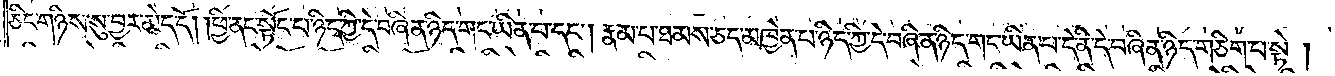ཅིང་གཉིས་སུ་བྱར་མེད་དོ། །ཕྱི་ནང་སྟོང་པ་ཉིད་ཀྱི་དེ་བཞིན་ཉིད་གང་ཡིན་པ་དང༌། རྣམ་པ་ཐམས་ཅད་མཁྱེན་པ་ཉིད་ཀྱི་དེ་བཞིན་ཉིད་གང་ཡིན་པ་དེ་ནི་དེ་བཞིན་ཉིད་གཅིག་པ་སྟེ།
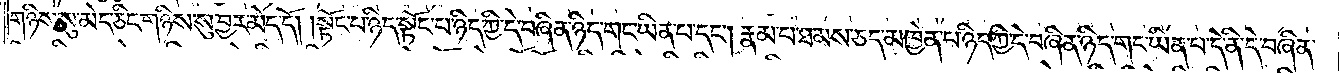གཉིས་སུ་མེད་ཅིང་གཉིས་སུ་བྱར་མེད་དོ། །སྟོང་པ་ཉིད་སྟོང་པ་ཉིད་ཀྱི་དེ་བཞིན་ཉིད་གང་ཡིན་པ་དང༌། རྣམ་པ་ཐམས་ཅད་མཁྱེན་པ་ཉིད་ཀྱི་དེ་བཞིན་ཉིད་གང་ཡིན་པ་དེ་ནི་དེ་བཞིན་
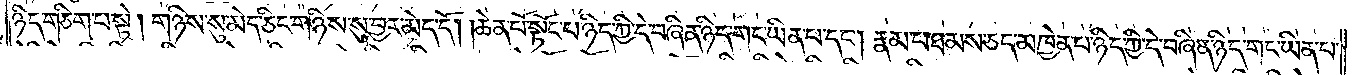ཉིད་གཅིག་པ་སྟེ། གཉིས་སུ་མེད་ཅིང་གཉིས་སུ་བྱར་མེད་དོ། །ཆེན་པོ་སྟོང་པ་ཉིད་ཀྱི་དེ་བཞིན་ཉིད་གང་ཡིན་པ་དང༌། རྣམ་པ་ཐམས་ཅད་མཁྱེན་པ་ཉིད་ཀྱི་དེ་བཞིན་ཉིད་གང་ཡིན་པ་
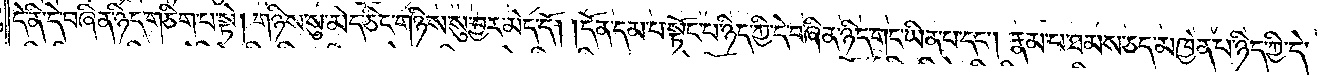དེ་ནི་དེ་བཞིན་ཉིད་གཅིག་པ་སྟེ། གཉིས་སུ་མེད་ཅིང་གཉིས་སུ་བྱར་མེད་དོ། །དོན་དམ་པ་སྟོང་པ་ཉིད་ཀྱི་དེ་བཞིན་ཉིད་གང་ཡིན་པ་དང༌། རྣམ་པ་ཐམས་ཅད་མཁྱེན་པ་ཉིད་ཀྱི་དེ་
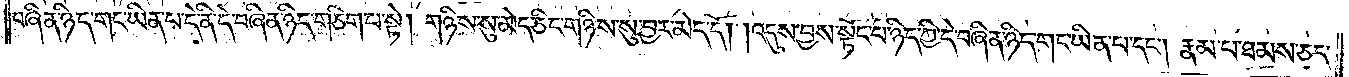བཞིན་ཉིད་གང་ཡིན་པ་དེ་ནི་དེ་བཞིན་ཉིད་གཅིག་པ་སྟེ། གཉིས་སུ་མེད་ཅིང་གཉིས་སུ་བྱར་མེད་དོ། །འདུས་བྱས་སྟོང་པ་ཉིད་ཀྱི་དེ་བཞིན་ཉིད་གང་ཡིན་པ་དང༌། རྣམ་པ་ཐམས་ཅད་
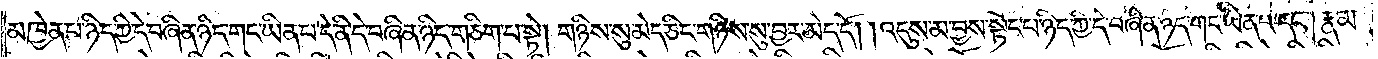མཁྱེན་པ་ཉིད་ཀྱི་དེ་བཞིན་ཉིད་གང་ཡིན་པ་དེ་ནི་དེ་བཞིན་ཉིད་གཅིག་པ་སྟེ། གཉིས་སུ་མེད་ཅིང་གཉིས་སུ་བྱར་མེད་དོ། །འདུས་མ་བྱས་སྟོང་པ་ཉིད་ཀྱི་དེ་བཞིན་ཉིད་གང་ཡིན་པ་དང༌། རྣམ་
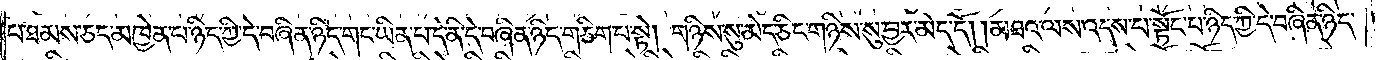པ་ཐམས་ཅད་མཁྱེན་པ་ཉིད་ཀྱི་དེ་བཞིན་ཉིད་གང་ཡིན་པ་དེ་ནི་དེ་བཞིན་ཉིད་གཅིག་པ་སྟེ། གཉིས་སུ་མེད་ཅིང་གཉིས་སུ་བྱར་མེད་དོ། །མཐའ་ལས་འདས་པ་སྟོང་པ་ཉིད་ཀྱི་དེ་བཞིན་ཉིད་
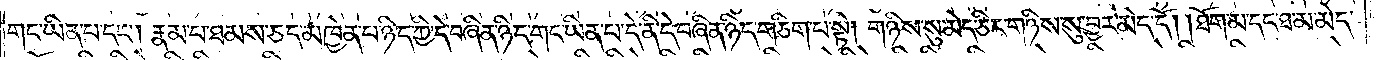གང་ཡིན་པ་དང༌། རྣམ་པ་ཐམས་ཅད་མཁྱེན་པ་ཉིད་ཀྱི་དེ་བཞིན་ཉིད་གང་ཡིན་པ་དེ་ནི་དེ་བཞིན་ཉིད་གཅིག་པ་སྟེ། གཉིས་སུ་མེད་ཅིང་གཉིས་སུ་བྱར་མེད་དོ། །ཐོག་མ་དང་ཐ་མ་མེད་
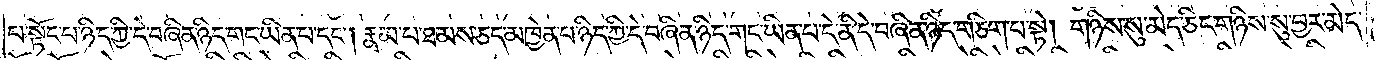པ་སྟོང་པ་ཉིད་ཀྱི་དེ་བཞིན་ཉིད་གང་ཡིན་པ་དང༌། རྣམ་པ་ཐམས་ཅད་མཁྱེན་པ་ཉིད་ཀྱི་དེ་བཞིན་ཉིད་གང་ཡིན་པ་དེ་ནི་དེ་བཞིན་ཉིད་གཅིག་པ་སྟེ། གཉིས་སུ་མེད་ཅིང་གཉིས་སུ་བྱར་མེད་
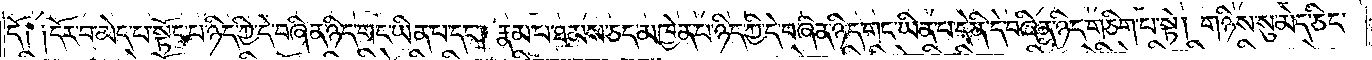དོ༑ ༑དོར་བ་མེད་པ་སྟོང་པ་ཉིད་ཀྱི་དེ་བཞིན་ཉིད་གང་ཡིན་པ་དང༌། རྣམ་པ་ཐམས་ཅད་མཁྱེན་པ་ཉིད་ཀྱི་དེ་བཞིན་ཉིད་གང་ཡིན་པ་དེ་ནི་དེ་བཞིན་ཉིད་གཅིག་པ་སྟེ། གཉིས་སུ་མེད་ཅིང་
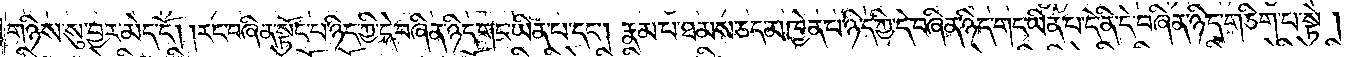གཉིས་སུ་བྱར་མེད་དོ། །རང་བཞིན་སྟོང་པ་ཉིད་ཀྱི་དེ་བཞིན་ཉིད་གང་ཡིན་པ་དང༌། རྣམ་པ་ཐམས་ཅད་མཁྱེན་པ་ཉིད་ཀྱི་དེ་བཞིན་ཉིད་གང་ཡིན་པ་དེ་ནི་དེ་བཞིན་ཉིད་གཅིག་པ་སྟེ།
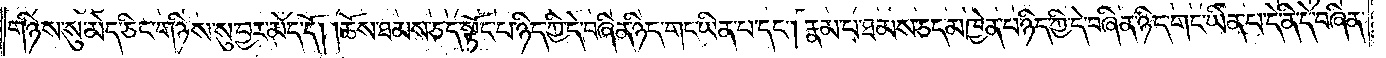གཉིས་སུ་མེད་ཅིང་གཉིས་སུ་བྱར་མེད་དོ། །ཆོས་ཐམས་ཅད་སྟོང་པ་ཉིད་ཀྱི་དེ་བཞིན་ཉིད་གང་ཡིན་པ་དང༌། རྣམ་པ་ཐམས་ཅད་མཁྱེན་པ་ཉིད་ཀྱི་དེ་བཞིན་ཉིད་གང་ཡིན་པ་དེ་ནི་དེ་བཞིན་
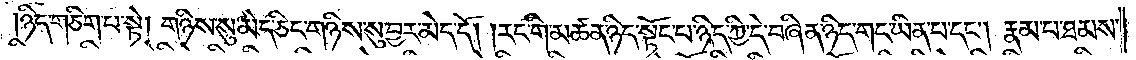ཉིད་གཅིག་པ་སྟེ། གཉིས་སུ་མེད་ཅིང་གཉིས་སུ་བྱར་མེད་དོ། །རང་གི་མཚན་ཉིད་སྟོང་པ་ཉིད་ཀྱི་དེ་བཞིན་ཉིད་གང་ཡིན་པ་དང༌། རྣམ་པ་ཐམས་
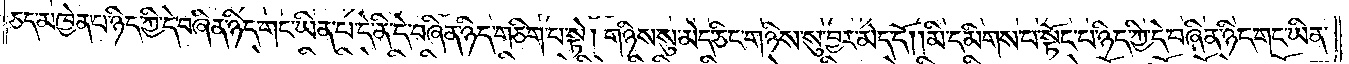ཅད་མཁྱེན་པ་ཉིད་ཀྱི་དེ་བཞིན་ཉིད་གང་ཡིན་པ་དེ་ནི་དེ་བཞིན་ཉིད་གཅིག་པ་སྟེ། གཉིས་སུ་མེད་ཅིང་གཉིས་སུ་བྱར་མེད་དོ། །མི་དམིགས་པ་སྟོང་པ་ཉིད་ཀྱི་དེ་བཞིན་ཉིད་གང་ཡིན་
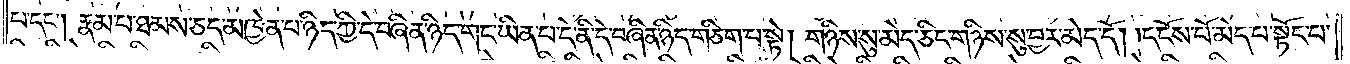པ་དང༌། རྣམ་པ་ཐམས་ཅད་མཁྱེན་པ་ཉིད་ཀྱི་དེ་བཞིན་ཉིད་གང་ཡིན་པ་དེ་ནི་དེ་བཞིན་ཉིད་གཅིག་པ་སྟེ། གཉིས་སུ་མེད་ཅིང་གཉིས་སུ་བྱར་མེད་དོ། །དངོས་པོ་མེད་པ་སྟོང་པ་
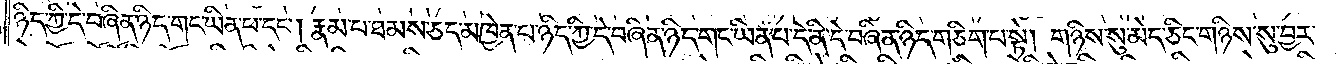ཉིད་ཀྱི་དེ་བཞིན་ཉིད་གང་ཡིན་པ་དང༌། རྣམ་པ་ཐམས་ཅད་མཁྱེན་པ་ཉིད་ཀྱི་དེ་བཞིན་ཉིད་གང་ཡིན་པ་དེ་ནི་དེ་བཞིན་ཉིད་གཅིག་པ་སྟེ། གཉིས་སུ་མེད་ཅིང་གཉིས་སུ་བྱར་
